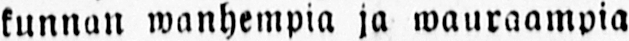kunnan wanhempia ja wauraampia
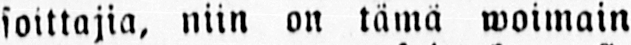soittajia, niin on tämä woimain
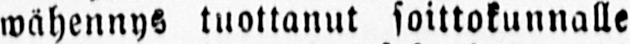wähennys tuottanut soittokunnalle
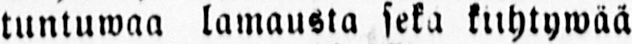tuntuwaa lamausta seka kiihtywää
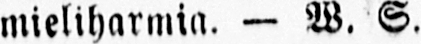mieliharmia. — W. S.
